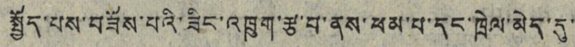སྤྱོད་པས་བཟོས་པའི་ཟིང་འཁྲུག་རྩ་པ་ནས་ཕམ་པ་དང་ཁྲེལ་མེད་དུ་
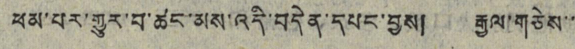ཕམ་པར་གྱུར་བ་ཚང་མས་འདི་བདེན་དཔང་བྱས། རྒྱལ་གཅེས་་
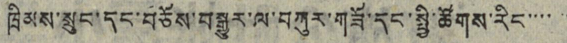ཁྲིམས་སྲུང་དང་བཅོས་བསྒྱུར་ལ་བཀུར་གཟོ་དང་སྤྱི་ཚོགས་རིང་་་་་
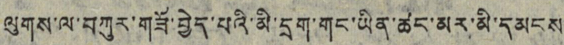ལུགས་ལ་བཀུར་གཟོ་བྱེད་པའི་མི་དྲག་གང་ཡིན་ཚང་མར་མི་དམངས་
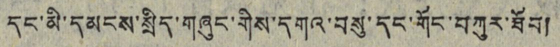དང་མི་དམངས་སྲིད་གཞུང་གིས་དགའ་བསུ་དང་གོང་བཀུར་ཐོབ།
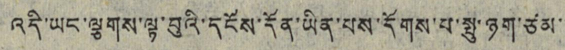འདི་ཡང་ལྕགས་ལྟ་བུའི་དངོས་དོན་ཡིན་པས་རོགས་པ་སྤུ་ཉག་ཙམ་་
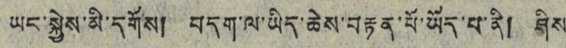ཡང་སྐྱེས་མི་དགོས། བདག་ལ་ཡིད་ཆེས་བརྟན་པོ་ཡོད་པ་ནི། ཤིས་
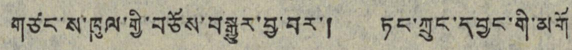གཙང་ས་ཁུལ་གྱི་བཅོས་བསྒྱུར་བྱ་བར་། ཏང་ཀྲུང་དབྱང་གི་མགོ
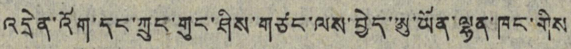འདྲེན་འོག་དང་ཀྲུང་གུང་ཤིས་གཙང་ལས་བྱེད་ཨུ་ཡོན་ལྷན་ཁང་གིས
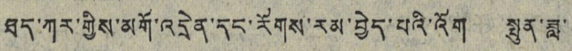ཐད་ཀར་གྱིས་མགོ་འདྲེན་དང་རོགས་རམ་བྱེད་པའི་འོག སྤུན་ཟླ་
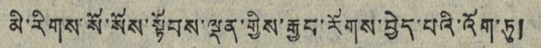མི་རིགས་སོ་སོས་སྟོབས་ལྡན་གྱིས་རྒྱབ་རོགས་བྱེད་པའི་འོག་ཏུ།
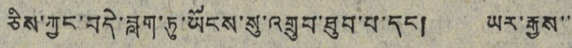ཅིས་ཀྱང་བདེ་བླག་ཏུ་ཡོངས་སུ་འགྲུབ་ཐུབ་པ་དང། ཡར་རྒྱས་་་
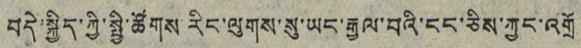བདེ་སྐྱིད་ཀྱི་སྤྱི་ཚོགས་རིང་ལུགས་སུ་ཡང་རྒྱལ་བའི་ངད་ཅིས་ཀྱང་འགྲོ
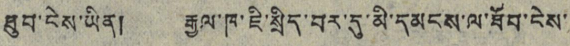ཐུབ་ངེས་ཡིན། རྒྱལ་ཁ་ཇི་སྲིད་བར་དུ་མི་དམངས་ལ་ཐོབ་ངེས་
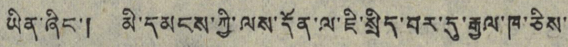ཡིན་ཞིང་། མི་དམངས་ཀྱི་ལས་དོན་ལ་ཇི་སྲིད་བར་དུ་རྒྱལ་ཁ་ཅིས་
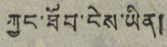ཀྱང་ཐོབ་ངེས་ཡིན།
